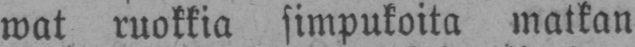wat ruokkia simpukoita matkan
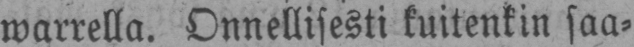warrella. Onnellisesti kuitenkin saa-
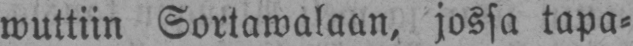wuttiin Sortawalaan, jossa tapa-
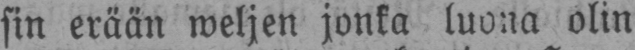sin erään weljen jonka luona olin
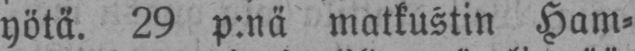yötä. 29 p:nä matkustin Ham-
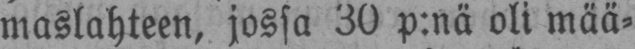maslahteen, jossa 30 p.nä oli mää-
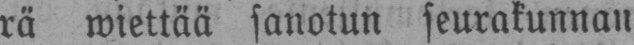rä wiettää sanotun seurakunnan
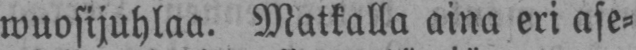wuosijuhlaa. Matkalla aina eri ase-
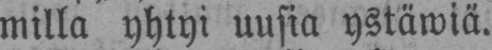milla yhtyi uusia ystäwiä.
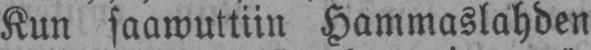Kun saawuttiin Hammaslahden
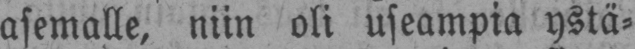asemalle, niin oli useampia ystä-
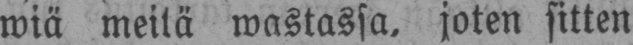wiä meitä wastassa, joten sitten
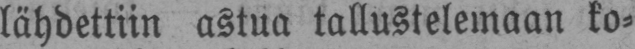lähdettiin astua tallustelemaan ko-
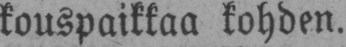kouspaikkaa kohden.
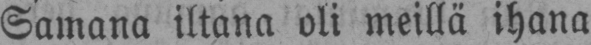Samana iltana oli meillä ihana
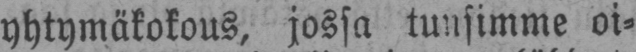yhtymäkokous, jossa tunsimme oi-
